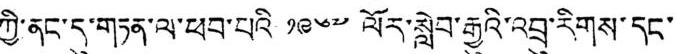ཀྱི་ནང་དུ་གཏན་ལ་ཕབ་པའི ༡༩༦༧ ལོར་སླེབ་རྒྱུའི་འབྲུ་རིགས་དང་
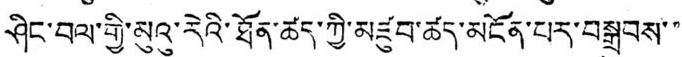ཤིང་བལ་གྱི་མུའུ་རེའི་ཐོན་ཚད་ཀྱི་མཛུབ་ཚད་མངོན་པར་བསྒྲུབས་་
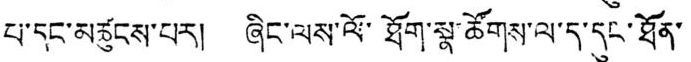པ་དང་མཚུངས་པར། ཞིང་ལས་ལོ་ཐོག་སྣ་ཚོགས་ལ་ད་དུང་ཐོན་
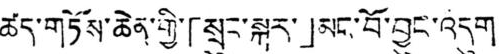ཚད་གཏོས་ཆེན་གྱི་「སྲུང་སྐར་」མང་བོ་བྱུང་འདུག
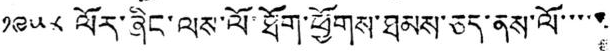༡༩༥༨ ལོར་ཞིང་ལས་ལོ་ཐོག་ཕྱོགས་ཐམས་ཅད་ནས་ལོ་་་་་
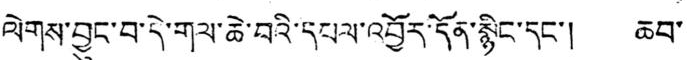ལེགས་བྱུང་བ་དེ་གལ་ཆེ་བའི་དཔལ་འབྱོར་དོན་སྙིང་དང་། ཆབ་
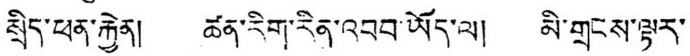སྲིད་ཕན་རྐྱེན། ཚན་རིག་རིན་འབབ་ཡོད་ལ། མི་གྲངས་ལྟར་
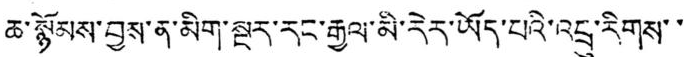ཆ་སྙོམས་བྱས་ན་མིག་སྔར་རང་རྒྱལ་མི་རེར་ཡོད་པའི་འབྲུ་རིགས་་
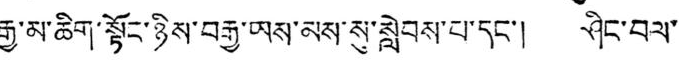རྒྱ་མ་ཆིག་སྟོང་ཉིས་བརྒྱ་ཡས་མས་སུ་སླེབས་པ་དང་། ཤིང་བལ་
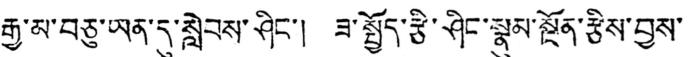རྒྱ་མ་བཅུ་ཡན་དུ་སླེབས་ཤིང་། ཟ་སྤྱོད་རྩི་ཤིང་སྣུམ་སྔོན་རྩིས་བྱས་
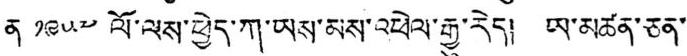ན ༡༩༥༧ ལོ་ལས་ཕྱེད་ཀ་ཡས་མས་འཕེལ་རྒྱུ་རེད། ཡ་མཚན་ཅན་
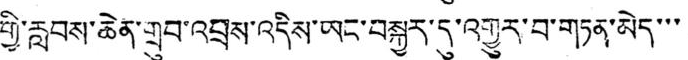གྱི་རླབས་ཆེན་གྲུབ་འབྲས་འདིས་ཡང་བསྐྱར་དུ་འགྱུར་བ་གཏན་མེད་་་
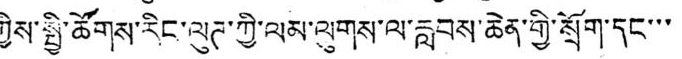ཀྱིས་སྤྱི་ཚོགས་རིང་ལུཊ་ལམ་ལུགས་ལ་རླབས་ཆེན་གྱི་སྲོག་དང་་་
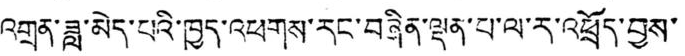འགྲན་ཟླ་མེད་པའི་ཁྱད་འཕགས་རང་བཞིན་ལྡན་པ་ལ་ར་འཕྲོད་བྱས་
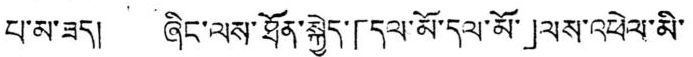པ་མ་ཟད། ཞིང་ལས་ཐོན་སྐྱེད་「དལ་མོ་དལ་མོ་」ལས་འཕེལ་མི་
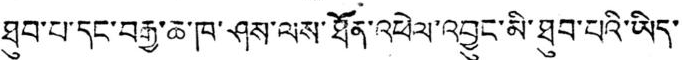ཐུབ་པ་དང་བརྒྱ་ཆ་ཁ་ཤས་ལས་ཐོན་འཕེལ་འབྱུང་མི་ཐུབ་པའི་ཡིད་
